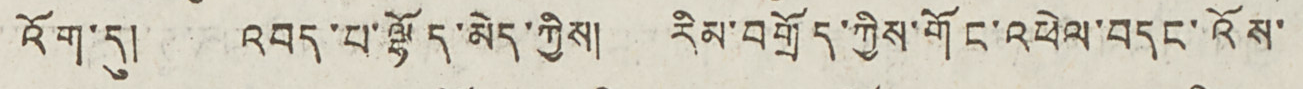འོག་དུ། འབད་པ་ལྷོད་མེད་ཀྱིས། རིམ་བགྲོད་ཀྱིས་གོང་འཕེལ་བདང་འོས་
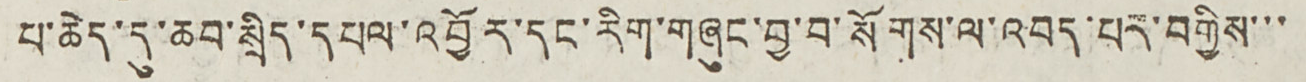པ་ཆེད་དུ་ཆབ་སྲིད་དཔལ་འབྱོར་དང་རིག་གཞུང་བྱ་བ་སོགས་ལ་འབད་པར་བགྱིས་་་
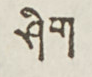ཤིག
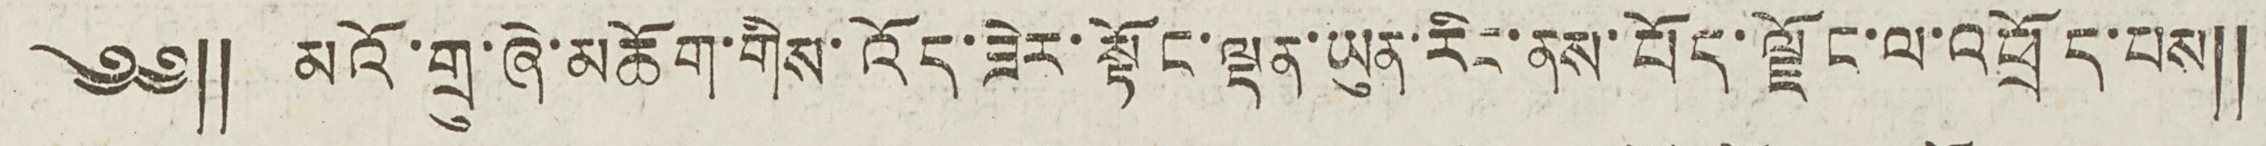༄༅༎ མའོ་གྲུ་ཞེ་མཆོག་གིས་འོད་ཟེར་སྟོང་ལྡན་ཡུན་རིང་ནས་བོད་ལྗོང་ལ་འཕྲོད་པས༎
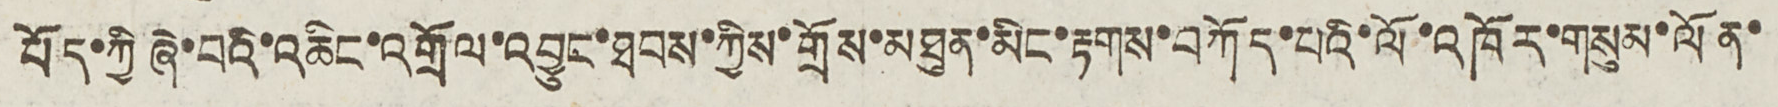བོད་ཀྱི ཞེ་བའི་འཆིང་འགྲོལ་འབྱུང་ཐབས་ཀྱིས་གྲོས་མཐུན་མིང་རྟགས་བཀོད་པའི་ལོ་འཁོར་གསུམ་ལོན་
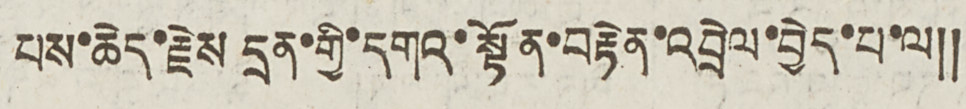པས་ཆེད་རྗེས དྲན་གྱི་དགའ་སྟོན་བརྟེན་འབྲེལ་བྱེད་པ་ལ།
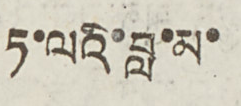ཏ་ལའི་བླ་མ་
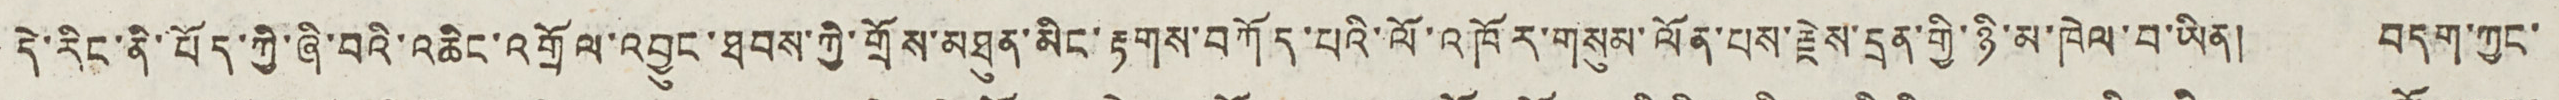དེ་རིང་ནི་བོད་ཀྱི་ཞི་བའི་འཆིང་འགྲོལ་འབྱུང་ཐབས་ཀྱི་གྲོས་མཐུན་མིང་རྟགས་བཀོད་པའི་ལོ་འཁོར་གསུམ་ལོན་པས་རྗེས་དྲན་གྱི་ཉི་མ་ཁེལ་བ་ཡིན། བདག་ཀྱང་
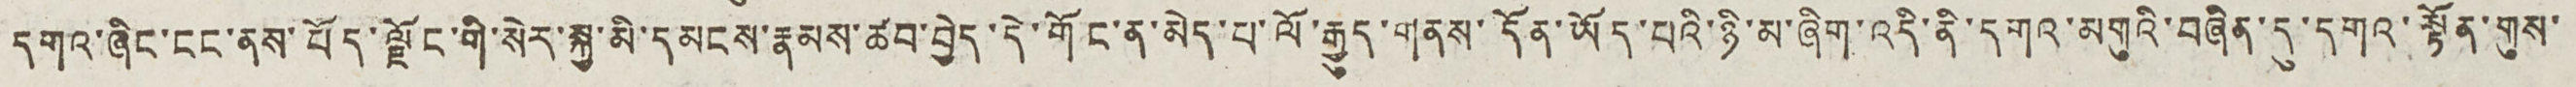དགའ་ཞིང་ངང་ནས་བོད་ལྗོང་གི་སེར་སྐྱ་མི་དམངས་རྣམས་ཚབ་བྱེད་དེ་གོང་ན་མེད་པ་ལོ་རྒྱུད་གནས་དོན་ཡོད་པའི་ཉི་མ་ཞིག་འདི་ནི་དགའ་མགུའི་བཞིན་དུ་དགའ་སྟོན་གུས་
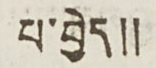པ་བྱེད༎
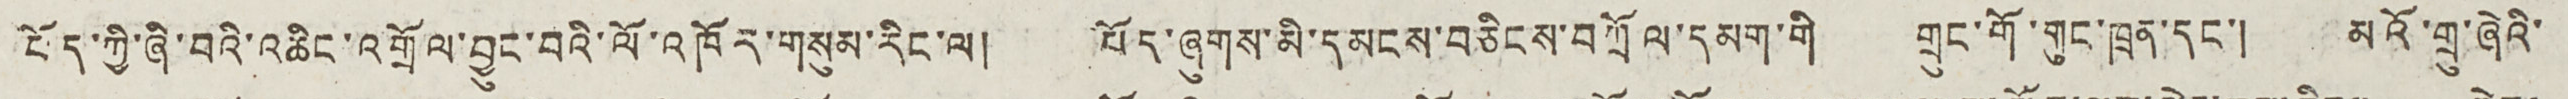བོད་ཀྱི་ཞི་བའི་འཆིང་འགྲོལ་བྱུང་བའི་ལོ་འཁོར་གསུམ་རིང་ལ། བོད་ཞུགས་མི་དམངས་བཅིངས་བཀྲོལ་དམག་གི གྲུང་གོ་གུང་ཁྲན་དང་། མའོ་གྲུ་ཞེའི་
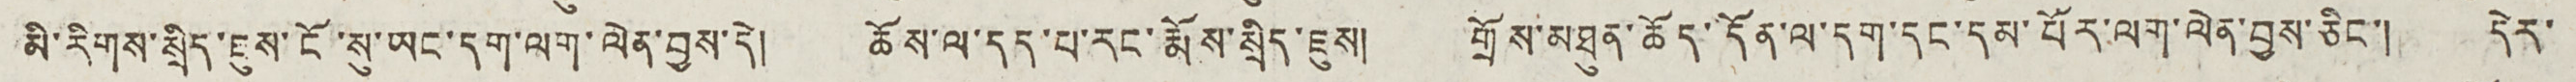མི་རིགས་སྲིད་ཇུས་ངོ་སུ་ཡང་དག་ལག་ལེན་བྱས་དེ། ཆོས་ལ་དད་པ་རང་རྨོས་སྲིད་ཇུས། གྲོས་མཐུན་ཆོད་དོན་ལ་དག་དང་དམ་པོར་ལག་ལེན་བྱས་ཅིང་། དེར་
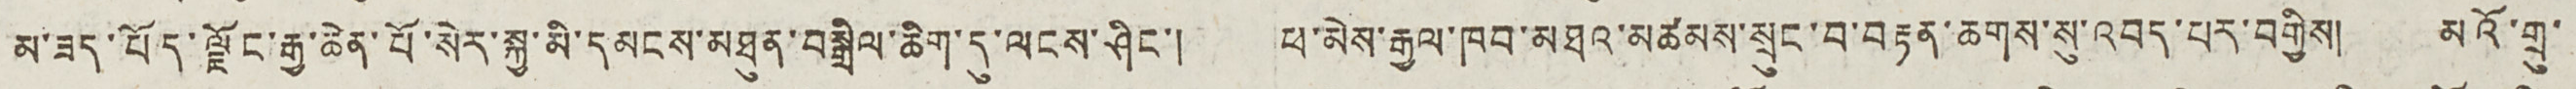མ་ཟད་བོད་ལྗོང་རྒྱ་ཆེན་པོ་སེར་སྐྱ་མི་དམངས་མཐུན་བསྒྲིལ་ཆིག་དུ་ལངས་ཤིང་། ཕ་མེས་རྒྱལ་ཁབ་མཐའ་མཚམས་སྲུང་བ་བརྟན་ཆགས་སུ་འབད་པར་བགྱིས། མའོ་གྲུ་
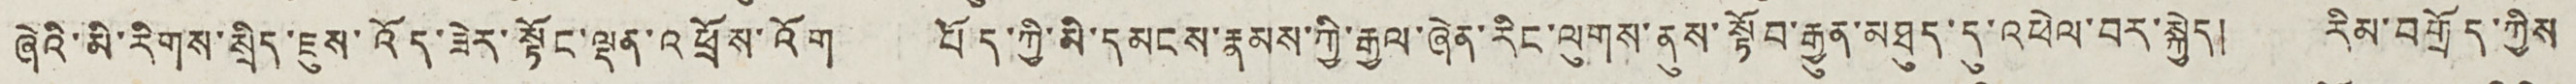ཞེའི་མི་རིགས་སྲིད་ཇུས་འོད་ཟེར་སྟོང་ལྡན་འཕྲོས་འོག བོད་ཀྱི་མི་དམངས་རྣམས་ཀྱི་རྒྱལ་ཞེན་རིང་ལུགས་ནུས་སྟོབ་རྒྱུན་མཐུད་དུ་འཕེལ་བར་སྐྱེད། རིམ་བགྲོད་ཀྱིས
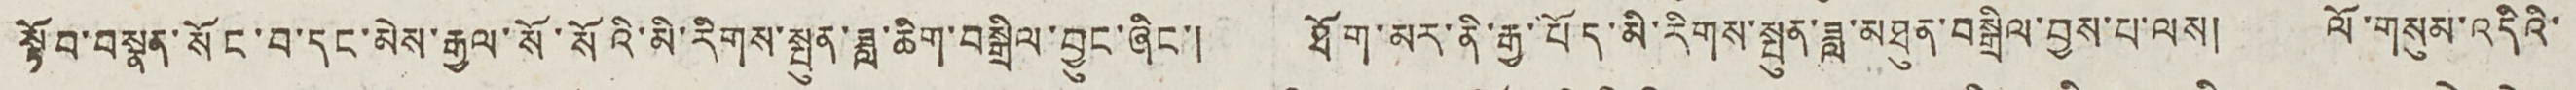སྟོབ་བསྣན་སོང་བ་དང་མེས་རྒྱལ་སོ་སོའི་མི་རིགས་སྤུན་ཟླ་ཆིག་བསྒྲིལ་བྱུང་ཞིང་། ཐོག་མར་ནི་རྒྱ་བོད་མི་རིགས་སྤུན་ཟླ་མཐུན་བསྒྲིལ་བྱས་པ་ལས། ལོ་གསུམ་འདིའི་
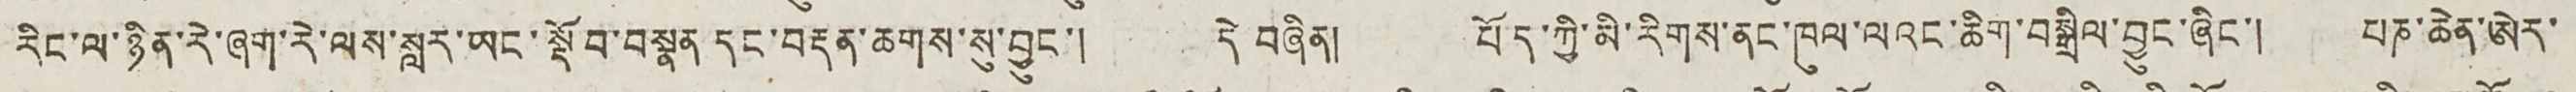རིང་ལ་ཉིན་རེ་ཞག་རེ་ལས་སླར་ཡང་སྡོབ་བསྣན དང་བརྡན་ཆགས་སུ་བྱུང་། དེ བཞིན། བོད་ཀྱི་མི་རིགས་ནང་ཁུལ་ལའང་ཆིག་བསྒྲིལ་བྱུང་ཞིང་། པཎ་ཆེན་ཨེར་
